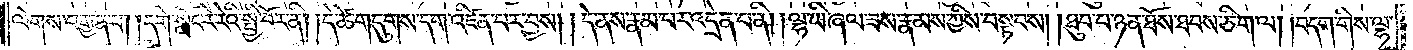ལེགས་བརྒྱན་པ། །དགེ་སློང་རེ་རེའི་སྤྱི་བོར་ནི། །དེ་ཚེ་གདུགས་དག་འཛིན་པར་བྱས། །དེ་ནས་རྣམ་པར་འདྲེན་པ་ནི། །ལྷ་ཡི་ཞལ་ཟས་རྣམས་ཀྱིས་བསྟབས། །ཐུབ་པ་ཉན་ཐོས་ཐབས་ཅིག་ལ། །བདག་གིས་ལྷ་
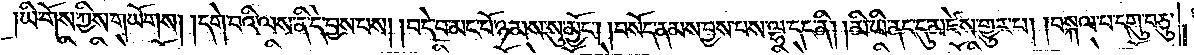།ཡི་གོས་ཀྱིས་གཡོགས། །དགེ་བའི་ལས་ནི་དེ་བྱས་པས། །བདེ་བ་མང་པོ་ཉམས་སུ་མྱོང༌། །བསོད་ནམས་བྱས་པས་ལྷ་དང་ནི། །མི་ཡི་ནང་དུ་མཛེས་གྱུར་པ། །བསྐལ་པ་དགུ་བཅུ་
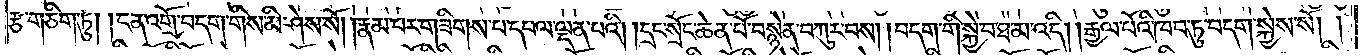རྩ་གཅིག་ཏུ། །ངན་འགྲོ་བདག་གིས་མི་ཤེས་སོ། །རྣམ་པར་གཟིགས་པ་དཔལ་ལྡན་པའི། །དྲང་སྲོང་ཆེན་པོ་བསྙེན་བཀུར་བས། །བདག་གི་སྐྱེ་བ་ཐ་མ་འདི། །རྒྱལ་པོའི་ཁབ་ཏུ་བདག་སྐྱེས་སོ། །
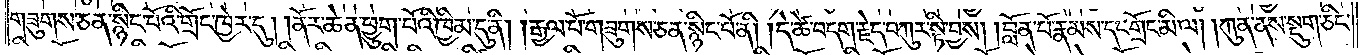གཟུགས་ཅན་སྙིང་པོའི་གྲོང་ཁྱེར་དུ། །ནོར་ཆེན་ཕྱུག་པོའི་ཁྱིམ་དུ་ནི། །རྒྱལ་པོ་གཟུགས་ཅན་སྙིང་པོ་ནི། །དེ་ཚེ་བདག་རྗེད་བཀུར་སྟི་བྱས། །བློན་པོ་རྣམས་དང་གྲོང་མི་ལ། །ཀུན་ནས་སྡུག་ཅིང་
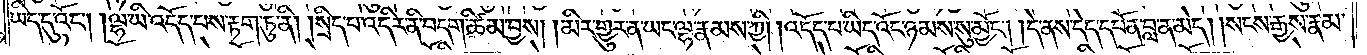ཡིད་དུ་འོང༌། །ལྷ་ཡི་འདོད་པས་རྟག་ཏུ་ནི། །སྲིད་པ་འདིར་ནི་བདག་ཚིམ་བྱས། །མིར་གྱུར་ན་ཡང་ལྷ་རྣམས་ཀྱི། །འདོད་པ་ཡིད་འོང་ཉམས་སུ་མྱོང༌། །དེ་ནས་དེད་དཔོན་བླ་ན་མེད། །སངས་རྒྱས་རྣམ་
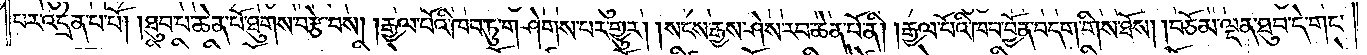པར་འདྲེན་པ་པོ། །ཐུབ་པ་ཆེན་པོ་ཐུགས་བརྩེ་བས། །རྒྱལ་པོའི་ཁབ་ཏུ་གཤེགས་པར་གྱུར། །སངས་རྒྱས་ཤེས་རབ་ཆེན་པོ་ནི། །རྒྱལ་པོའི་ཁབ་བྱོན་བདག་གིས་ཐོས། །བཅོམ་ལྡན་ཐུབ་དེ་གང་
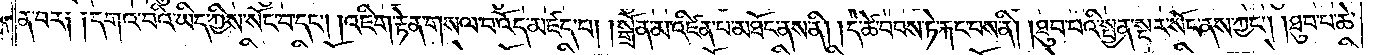ན་བར༑ ༑དགའ་བའི་ཡིད་ཀྱིས་སོང་བ་དང༌། །འཇིག་རྟེན་གསལ་བ་འོད་མཛད་པ། །སྒྲོན་མ་འཛིན་པ་མཐོང་ནས་ནི། །དེ་ཚེ་བབས་ཏེ་རྐང་པས་ནི། །ཐུབ་པའི་སྤྱན་སྔར་སོང་ནས་ཀྱང༌། །ཐུབ་པ་ཆེ་
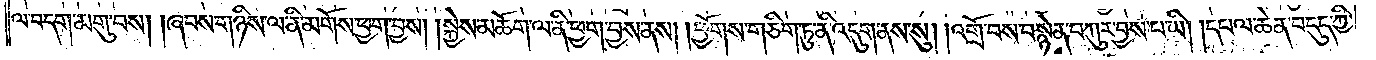ལ་བདག་མགུ་བས། །ཞབས་གཉིས་ལ་ནི་མགོས་ཕྱག་བྱས། །སྐྱེས་མཆོག་ལ་ནི་ཕྱག་བྱས་ནས། །ཕྱོགས་གཅིག་ཏུ་ནི་འདུག་ནས་སུ། །འགྲོ་བས་བསྙེན་བཀུར་བྱས་པ་ཡི། །དཔལ་ཆེན་བདུད་ཀྱི་
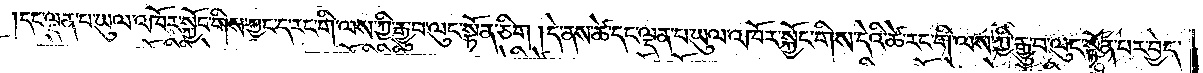དང་ལྡན་པ་ཡུལ་འཁོར་སྐྱོང་གིས་ཀྱང་ད་རང་གི་ལས་ཀྱི་རྒྱུ་བ་ལུང་སྟོན་ཅིག །དེ་ནས་ཚེ་དང་ལྡན་པ་ཡུལ་འཁོར་སྐྱོང་གིས་དེའི་ཚེ་རང་གི་ལས་ཀྱི་རྒྱུ་བ་ལུང་སྟོན་པར་བྱེད་
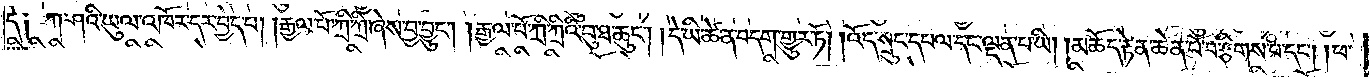དེ༑ ཀ་ཤའི་ཡུལ་འཁོར་དར་བྱེད་པ། །རྒྱལ་པོ་ཀྲི་ཀྲི་ཞེས་བྱ་བྱུང༌། །རྒྱལ་པོ་ཀྲི་ཀྲིའི་བུ་ཐ་ཆུང༌། །དེ་ཡི་ཚེ་ན་བདག་གྱུར་ཏོ། །འོད་སྲུང་དཔལ་དང་ལྡན་པ་ཡི། །མཆོད་རྟེན་ཆེན་པོ་བརྩིགས་པ་དང༌། །ཕ་
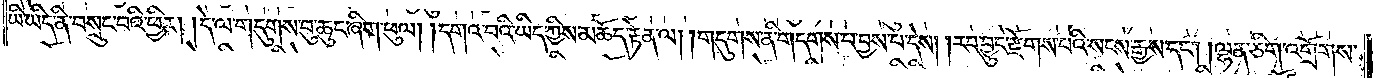ཡི་ཡིད་ནི་བསྲུང་བའི་ཕྱིར། །དེ་ལ་གདུགས་བུ་ཆུང་ཞིག་ཕུལ། །དགའ་བའི་ཡིད་ཀྱིས་མཆོད་རྟེན་ལ། །གདུགས་ནི་གདགས་པ་བྱས་པ་དེས། །རབ་བྱུང་རྫོགས་པའི་སངས་རྒྱས་དང༌། །ལྷན་ཅིག་འགྲོགས་
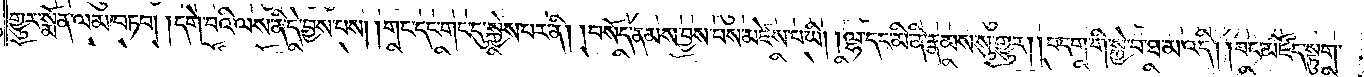གྱུར་སྨོན་ལམ་བཏབ། །དགེ་བའི་ལས་ནི་དེ་བྱས་པས། །གང་དང་གང་དུ་སྐྱེས་པར་ནི། །བསོད་ནམས་བྱས་པས་མཛེས་པ་ཡི། །ལྷ་དང་མི་ནི་རྣམས་སུ་གྱུར། །བདག་གི་སྐྱེ་བ་ཐ་མ་འདི། །བང་མཛོད་སྟུག་
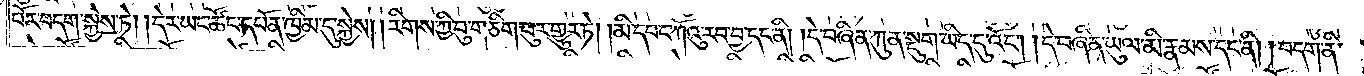པོར་བདག་སྐྱེས་ཏེ། །དེར་ཡང་ཚོང་དཔོན་ཁྱིམ་དུ་སྐྱེས། །རིགས་ཀྱི་བུ་གཅིག་བུར་གྱུར་ཏེ། །མི་དབང་ཀོའུ་རབ་བྱ་དང་ནི། །དེ་བཞིན་ཀུན་སྡུག་ཡིད་དུ་འོང༌། །དེ་བཞིན་ཡུལ་མི་རྣམས་དང་ནི། །བདག་ནི་
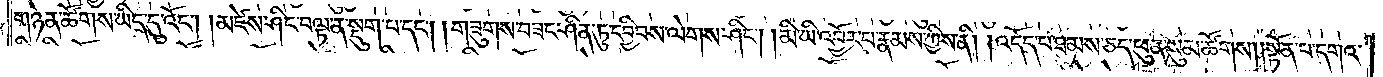གཉེན་ཚོགས་ཡིད་དུ་འོང༌། །མཛེས་ཤིང་བལྟ་ན་སྡུག་པ་དང༌། །གཟུགས་བཟང་ཤིན་ཏུ་དབྱིབས་ལེགས་ཤིང༌། །མི་ཡི་འབྱོར་པ་རྣམས་ཀྱིས་ནི། །འདོད་པ་ཐམས་ཅད་ཕུན་སུམ་ཚོགས། །སྟོན་པ་དགའ་
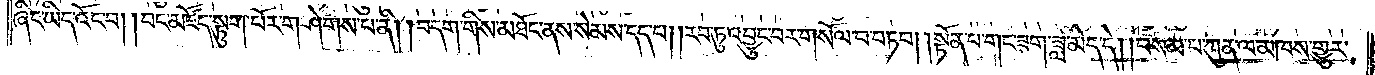ཞིང་ཡིད་འོང་བ། །བང་མཛོད་སྟུག་པོར་གཤེགས་པ་ནི། །བདག་གིས་མཐོང་ནས་སེམས་དད་པ། །རབ་ཏུ་འབྱུང་བར་གསོལ་བ་བཏབ། །སྟོན་པ་གང་ཟག་ཟླ་མེད་དེ། །བསམ་པ་ཀུན་ལ་མཁས་གྱུར་
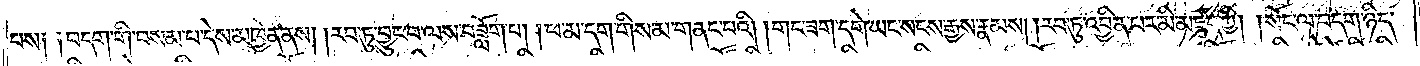པས༑ ༑བདག་གི་བསམ་པ་དེས་མཁྱེན་ནས། །རབ་ཏུ་བྱུང་བ་ལས་བཟློག་པ། །ཕ་མ་དག་གིས་མ་གནང་བའི། །གང་ཟག་དགེ་ཡང་སངས་རྒྱས་རྣམས། །རབ་ཏུ་འབྱིན་པར་མི་མཛད་ཀྱི། །སོང་ལ་བདག་ཉིད་
